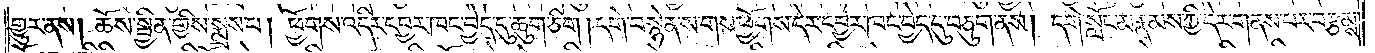གྱུར་ནས། ཆོས་སྦྱིན་གྱིས་སྨྲས་པ། ཕྱོགས་འདིར་དབྱར་ཁང་བྱེད་དུ་ཆུག་ཅིག །དགེ་བསྙེན་ས་གས་ཕྱོགས་དེར་དབྱར་ཁང་བྱེད་དུ་བཅུག་ནས། དགེ་སློང་མ་རྣམས་ཀྱི་དེར་གནས་པར་བརྩམས་
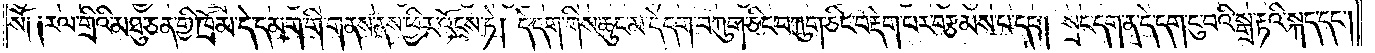སོ༑ ༑རལ་གྲིའི་མཐུ་ཅན་གྱི་ཁྲོམ་དེ་དམག་གི་གནས་ནས་ཕྱིར་འོངས་ཏེ། དེ་དག་གིས་ཆུང་མ་དེ་དག་བཀུག་ཅིང་བཀུག་ཅིང་བརྡེག་པར་བརྩམས་པ་དང༌། སྲང་དག་ན་དེ་དག་ངུ་བའི་སྒྲ་རྟའི་སྐད་དང༌།
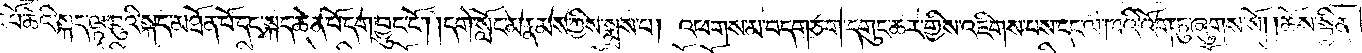གླང་པོ་ཆེའི་སྐད་ལྟ་བུའི་སྐད་མཐོན་པོ་དང་སྐད་ཆེན་པོ་དག་བྱུང་ངོ༌། །དགེ་སློང་མ་རྣམས་ཀྱིས་སྨྲས་པ། འཕགས་མ་བདག་ཅག་དགུང་ཆར་གྱིས་འཇིགས་པས་དང་ལ་ཁའི་འོག་ཏུ་ཞུགས་སོ། །ཆོས་སྦྱིན་
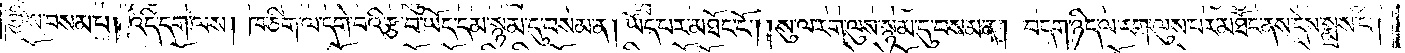གྱིས་བསམ་པ། འདི་དག་ལས། ཁ་ཅིག་ལ་དགེ་བའི་རྩ་བ་ཡོད་དམ་སྙམ་དུ་བསམ་ན། ཡོད་པར་མཐོང་ངོ༌། །སུ་ལ་རག་ལུས་སྙམ་དུ་བསམ་ན། བདག་ཉིད་ལ་རག་ལུས་པར་མཐོང་ནས་དེས་སྨྲས་པ།
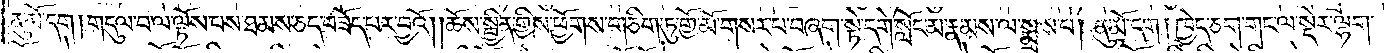ནུ་མོ་དག །གདུལ་བ་ལ་ལྟོས་པས་ཐམས་ཅད་བཟོད་པར་བྱའོ། །ཆོས་སྦྱིན་གྱིས་ཕྱོགས་གཅིག་ཏུ་གྱོ་མོ་གསར་པ་བཞག་སྟེ་དགེ་སློང་མ་རྣམས་ལ་སྨྲས་པ། ནུ་མོ་དག །ཁྱེད་ཅག་གང་ལ་སྡེར་ལྷག་
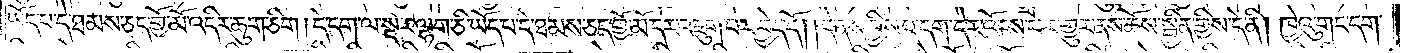ཡོད་པ་དེ་ཐམས་ཅད་གྱོ་མོ་འདིར་ཆུག་ཅིག །དེ་དག་ལ་སྔར་ལྷག་ཅི་ཡོད་པ་དེ་ཐམས་ཅད་གྱོ་མོ་དེར་འཇུག་པར་བྱེད་དོ། །དེ་ནས་བྱིས་པ་དག་དེར་འོངས་པར་གྱུར་ནས་ཆོས་སྦྱིན་གྱིས་དེ་ནི། ཁྱེའུ་གང་དག་
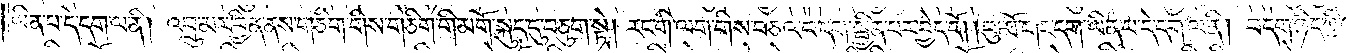ཡིན་པ་དེ་དག་ལ་ནི། འབྲུ་མར་བྱིན་ནས་གཅིག་གིས་གཅིག་གི་མགོ་སྐུད་དུ་བཅུག་སྟེ། རང་གི་ལག་གིས་བཅའ་བ་དག་སྦྱིན་པར་བྱེད་དོ། །བུ་མོ་གང་དག་ཡིན་པ་དེ་དག་ལ་ནི། བདག་ཉིད་ཀྱི་འབྲུ་
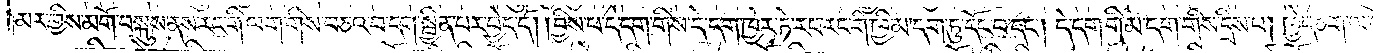མར་གྱིས་མགོ་བསྐུས་ནས་རང་གི་ལག་གིས་བཅའ་བ་དག་སྦྱིན་པར་བྱེད་དོ། །བྱིས་པ་དེ་དག་གིས་དེ་དག་ཁྱེར་ཏེ་རང་རང་གི་ཁྱིམ་དག་ཏུ་དོང་བ་དང༌། དེ་དག་གི་མ་དག་གིས་དྲིས་པ། ཁྱེད་ཅག་ལ་འདི་
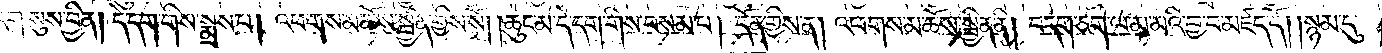དག་སུས་བྱིན། དེ་དག་གིས་སྨྲས་པ། འཕགས་མ་ཆོས་སྦྱིན་གྱིས་སོ། །ཆུང་མ་དེ་དག་གིས་བསམ་པ། དོན་གྱིས་ན། འཕགས་མ་ཆོས་སྦྱིན་ནི། བདག་ཅག་ལ་མ་མའི་བྱ་བ་མཛད་དོ། །སྙམ་དུ་
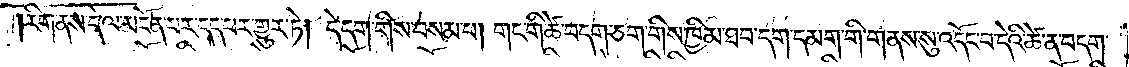།རིག་ནས་དེ་ལ་མངོན་པར་དད་པར་གྱུར་ཏེ། དེ་དག་གིས་བསམ་པ། གང་གི་ཚེ་བདག་ཅག་གིས་ཁྱིམ་ཐབ་དག་དམག་གི་གནས་སུ་འདོང་བ་དེའི་ཚེ་ན་བདག་
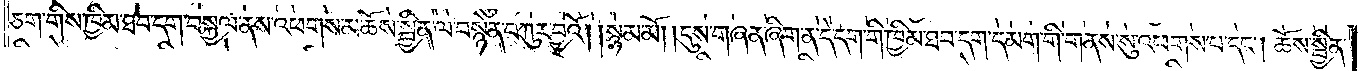ཅག་གིས་ཁྱིམ་ཐབ་དག་བསྐྱལ་ནས་འཕགས་མ་ཆོས་སྦྱིན་ལ་བསྙེན་བཀུར་བྱའོ། །སྙམ་མོ། །དུས་གཞན་ཞིག་ན་དེ་དག་གི་ཁྱིམ་ཐབ་དག་དམག་གི་གནས་སུ་འཕགས་པ་དང༌། ཆོས་སྦྱིན་
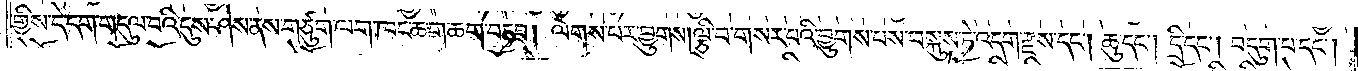གྱིས་དེ་དག་གདུལ་བའི་དུས་ཤེས་ནས་གཙུག་ལག་ཁང་ཆག་ཆག་བཏབ། ལེགས་པར་བྱུགས། ལྕི་བ་གསར་པའི་བྱུགས་པས་བསྐུས་ཏེ་འདག་རྫས་དང༌། ཆུ་དང༌། དྲི་དང༌། བདུག་པ་དང༌།
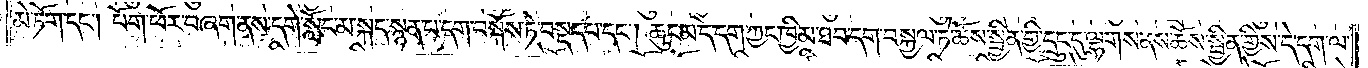མེ་ཏོག་དང༌། པོག་ཕོར་བཞག་ནས་དགེ་སློང་མ་སྐད་སྙན་པ་དག་བསྐོས་ཏེ་བསྡད་པ་དང༌། ཆུང་མ་དེ་དག་ཀྱང་ཁྱིམ་ཐབ་དག་བསྐྱལ་ཏེ་ཆོས་སྦྱིན་གྱི་དྲུང་དུ་ལྷགས་ནས་ཆོས་སྦྱིན་གྱིས་དེ་དག་ལ་
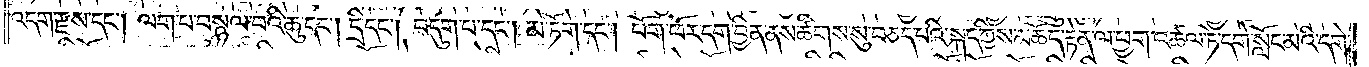འདག་རྫས་དང༌། ལག་པ་བསྙལ་བའི་ཆུ་དང༌། དྲི་དང༌། བདུག་པ་དང༌། མེ་ཏོག་དང༌། པོག་ཕོར་དག་བྱིན་ནས་ཚིགས་སུ་བཅད་པའི་སྐད་ཀྱིས་མཆོད་རྟེན་ལ་ཕྱག་འཚལ་ཏེ་དགེ་སློང་མའི་དགེ་
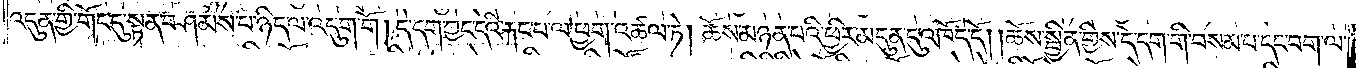འདུན་གྱི་གོང་དུ་སྟན་བཤམས་པ་ཉིད་ལ་འདུག་གོ །དེ་དག་ཀྱང་དེའི་རྐང་པ་ལ་ཕྱག་འཚལ་ཏེ། ཆོས་མཉན་པའི་ཕྱིར་མདུན་དུ་འཁོད་དོ། །ཆོས་སྦྱིན་གྱིས་དེ་དག་གི་བསམ་པ་དང་བག་ལ་
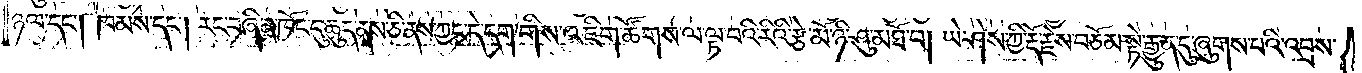ཉལ་དང༌། ཁམས་དང༌། རང་བཞིན་ཁོང་དུ་ཆུད་ནས་ཅི་ནས་ཀྱང་དེ་དག་གིས་འཇིག་ཚོགས་ལ་ལྟ་བའི་རིའི་རྩེ་མོ་ཉི་ཤུ་མཐོ་བ། ཡེ་ཤེས་ཀྱི་རྡོ་རྗེས་བཅོམ་སྟེ་རྒྱུན་དུ་ཞུགས་པའི་འབྲས་
